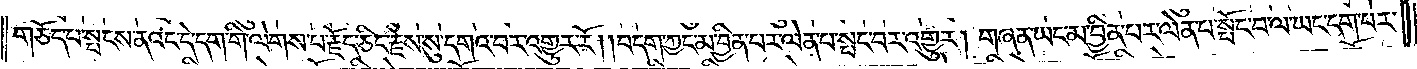གཅོད་པ་སྤངས་ནའང་དེ་དག་གི་ལེགས་པ་རྗོད་ཅིང་རྗེས་སུ་དགའ་བར་འགྱུར་རོ། །བདག་ཀྱང་མ་བྱིན་པར་ལེན་པ་སྤང་བར་འགྱུར། གཞན་ཡང་མ་བྱིན་པར་ལེན་པ་སྤོང་བ་ལ་ཡང་དག་པར་
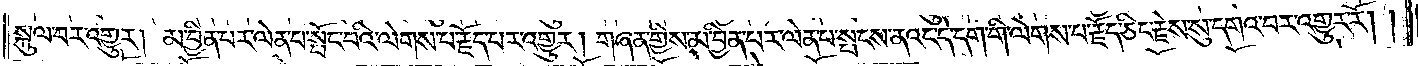སྐུལ་བར་འགྱུར། མ་བྱིན་པར་ལེན་པ་སྤོང་བའི་ལེགས་པ་རྗོད་པར་འགྱུར། གཞན་གྱིས་མ་བྱིན་པར་ལན་པ་སྤངས་ནའང་དེ་དག་གི་ལེགས་པ་རྗོད་ཅིང་རྗེས་སུ་དགའ་བར་འགྱུར་རོ། །
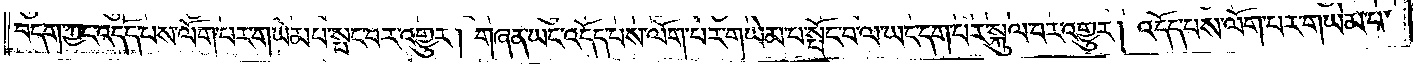བདག་ཀྱང་འདོད་པས་ལོག་པར་གཡེམ་པ་སྤང་བར་འགྱུར། གཞན་ཡང་འདོད་པས་ལོག་པར་གཡེམ་པ་སྤོང་བ་ལ་ཡང་དག་པར་སྐུལ་བར་འགྱུར། འདོད་པས་ལོག་པར་གཡེམ་པ་
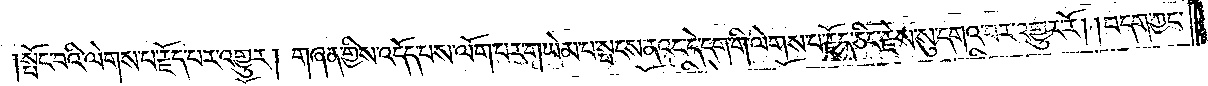སྤོང་བའི་ལེགས་པ་རྗོད་པར་འགྱུར། གཞན་གྱིས་འདོད་པས་ལོག་པར་གཡེམ་པ་སྤངས་ནའང་དེ་དག་གི་ལེགས་པ་རྗོད་ཅིང་རྗེས་སུ་དགའ་བར་འགྱུར་རོ། །བདག་ཀྱང་
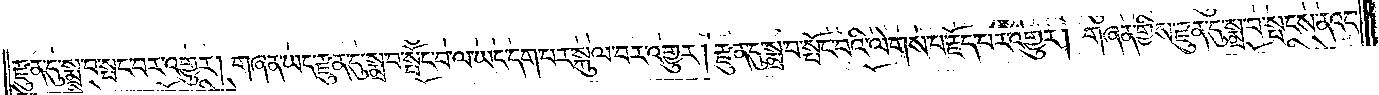རྫུན་དུ་སྨྲ་བ་སྤང་བར་འགྱུར། གཞན་ཡང་རྫུན་དུ་སྨྲ་བ་སྤོང་བ་ལ་ཡང་དག་པར་སྐུལ་བར་འགྱུར། རྫུན་དུ་སྨྲ་བ་སྤོང་བའི་ལེགས་པ་རྗོད་པར་འགྱུར། གཞན་གྱིས་རྫུན་དུ་སྨྲ་བ་སྤངས་ནའང་
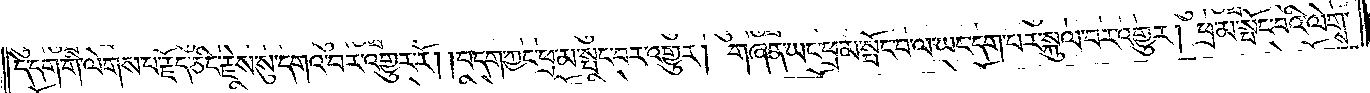དེ་དག་གི་ལེགས་པ་རྗོད་ཅིང་རྗེས་སུ་དགའ་བར་འགྱུར་རོ། །བདག་ཀྱང་ཕྲ་མ་སྤང་བར་འགྱུར། གཞན་ཡང་ཕྲ་མ་སྤོང་བ་ལ་ཡང་དག་པར་སྐུལ་བར་འགྱུར། ཕྲ་མ་སྤོང་བའི་ལེགས་
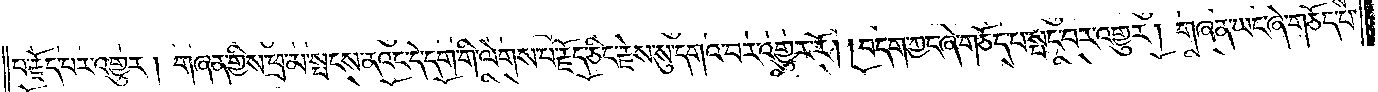པ་རྗོད་པར་འགྱུར། གཞན་གྱིས་ཕྲ་མ་སྤངས་ནའང་དེ་དག་གི་ལེགས་པ་རྗོད་ཅིང་རྗེས་སུ་དགའ་བར་འགྱུར་རོ། །བདག་ཀྱང་ཞེ་གཅོད་པ་སྤང་བར་འགྱུར། གཞན་ཡང་ཞེ་གཅོད་པ་
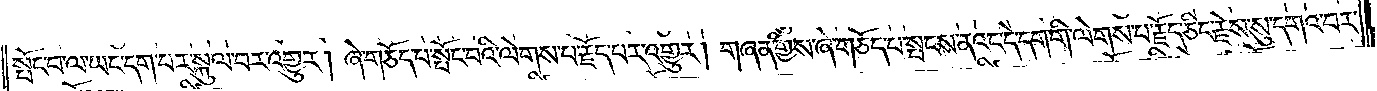སྤོང་བ་ལ་ཡང་དག་པར་སྐུལ་བར་འགྱུར། ཞེ་གཅོད་པ་སྤོང་བའི་ལེགས་པ་རྗོད་པར་འགྱུར། གཞན་གྱིས་ཞེ་གཅོད་པ་སྤངས་ནའང་དེ་དག་གི་ལེགས་པ་རྗོད་ཅིང་རྗེས་སུ་དགའ་བར་
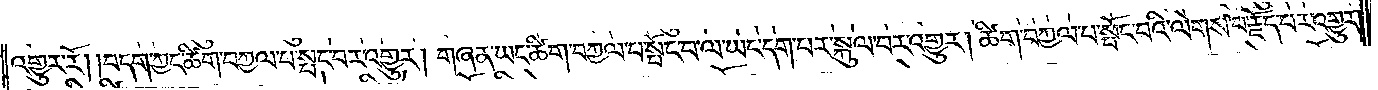འགྱུར་རོ། །བདག་ཀྱང་ཚིག་བཀྱལ་པ་སྤང་བར་འགྱུར། གཞན་ཡང་ཚིག་བཀྱལ་པ་སྤོང་བ་ལ་ཡང་དག་པར་སྐུལ་བར་འགྱུར། ཚིག་བཀྱལ་པ་སྤོང་བའི་ལེགས་པ་རྗོད་པར་འགྱུར།
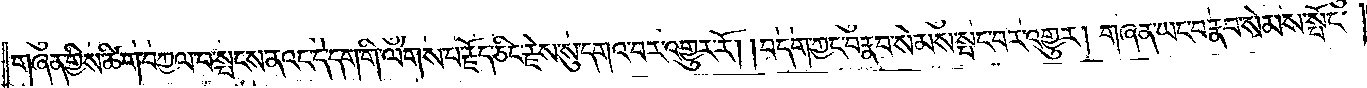གཞན་གྱིས་ཚིག་བཀྱལ་པ་སྤངས་ནའང་དེ་དག་གི་ལེགས་པ་རྗོད་ཅིང་རྗེས་སུ་དགའ་བར་འགྱུར་རོ། །བདག་ཀྱང་བརྣབ་སེམས་སྤང་བར་འགྱུར། གཞན་ཡང་བརྣབ་སེམས་སྤོང་
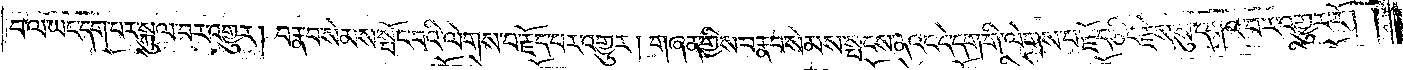བ་ལ་ཡང་དག་པར་སྐུལ་བར་འགྱུར། བརྣབ་སེམས་སྤོང་བའི་ལེགས་པ་རྗོད་པར་འགྱུར། གཞན་གྱིས་བརྣབ་སེམས་སྤངས་ནའང་དེ་དག་གི་ལེགས་པ་རྗོད་ཅིང་རྗེས་སུ་དགའ་བར་འགྱུར་རོ། །
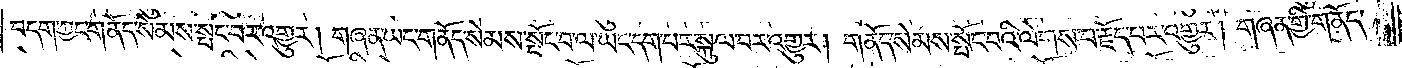བདག་ཀྱང་གནོད་སེམས་སྤང་བར་འགྱུར། གཞན་ཡང་གནོད་སེམས་སྤོང་བ་ལ་ཡང་དག་པར་སྐུལ་བར་འགྱུར། གནོད་སེམས་སྤོང་བའི་ལེགས་པ་རྗོད་པར་འགྱུར། གཞན་གྱིས་གནོད་
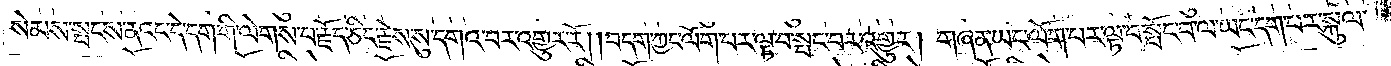སེམས་སྤངས་ནའང་དེ་དག་གི་ལེགས་པ་རྗོད་ཅིང་རྗེས་སུ་དགའ་བར་འགྱུར་རོ། །བདག་ཀྱང་ལོག་པར་ལྟ་བ་སྤང་བར་འགྱུར། གཞན་ཡང་ལོག་པར་ལྟ་བ་སྤོང་བ་ལ་ཡང་དག་པར་སྐུལ་
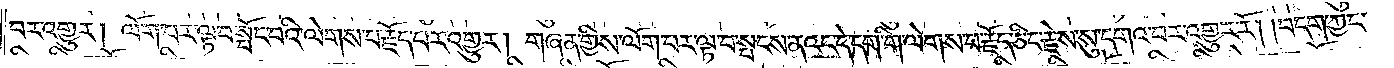བར་འགྱུར། ལོག་པར་ལྟ་བ་སྤོང་བའི་ལེགས་པ་རྗོད་པར་འགྱུར། གཞན་གྱིས་ལོག་པར་ལྟ་བ་སྤངས་ནའང་དེ་དག་གི་ལེགས་པ་རྗོད་ཅིང་རྗེས་སུ་དགའ་བར་འགྱུར་རོ། །བདག་ཀྱང་
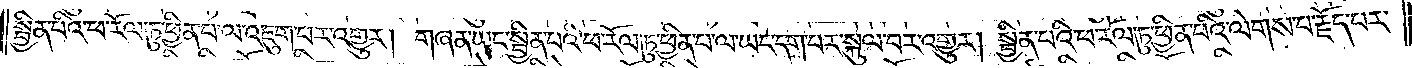སྦྱིན་པའི་ཕ་རོལ་ཏུ་ཕྱིན་པ་ལ་འཇུག་པར་འགྱུར། གཞན་ཡང་སྦྱིན་པའི་ཕ་རོལ་ཏུ་ཕྱིན་པ་ལ་ཡང་དག་པར་སྐུལ་བར་འགྱུར། སྦྱིན་པའི་ཕ་རོལ་ཏུ་ཕྱིན་པའི་ལེགས་པ་རྗོད་པར་
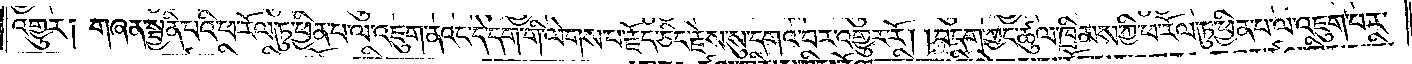འགྱུར། གཞན་སྦྱིན་པའི་ཕ་རོལ་ཏུ་ཕྱིན་པ་ལ་འཇུག་ནའང་དེ་དག་གི་ལེགས་པ་རྗོད་ཅིང་རྗེས་སུ་དགའ་བར་འགྱུར་རོ། །བདག་ཀྱང་ཚུལ་ཁྲིམས་ཀྱི་ཕ་རོལ་ཏུ་ཕྱིན་པ་ལ་འཇུག་པར་
